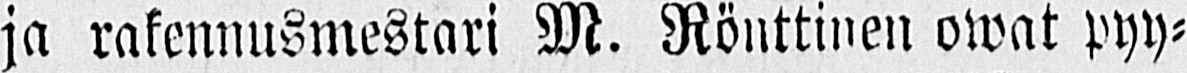ja rakennusmestari M. Rönttinen owat pyy-
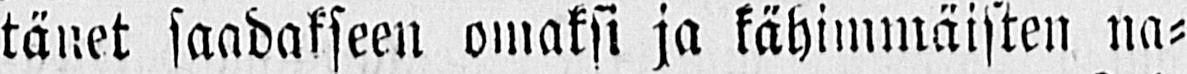tänet saadakseen omaksi ja kähimmäisten na-
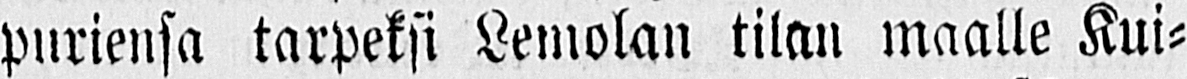puriensa tarpeksi Lemolan tilan maalle Kui-
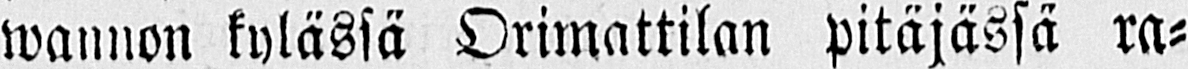wannon kylässä Orimattilan pitäjässä ra-
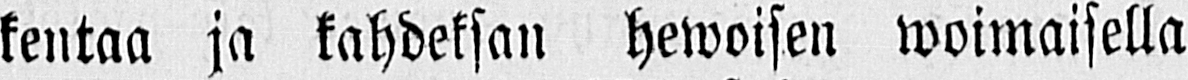kentaa ja kahdeksan hewoisen woimaisella
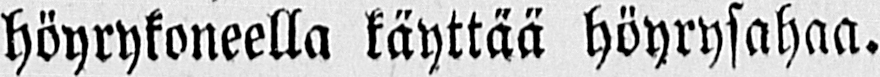höyrykoneella käyttää höyrysahaa.
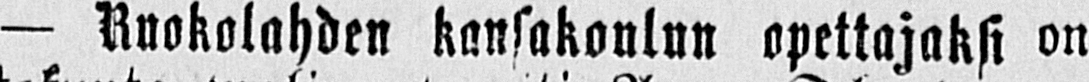— Ruokolahden kansakoulun opettajaksi on
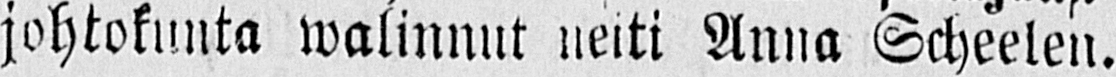johtokunta walinnnt neiti Anna Scheelen.
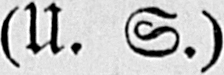(U. S.)
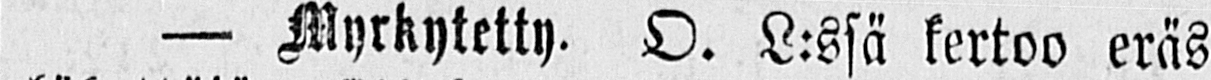— Myrkytetty. O. L:ssä kertoo eräs
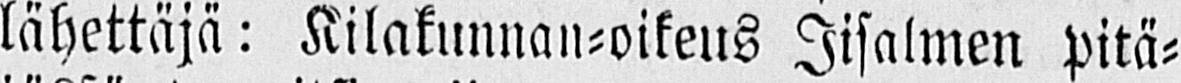lähettäjä: Kilakunnan-oikeus Iisalmen pitä-
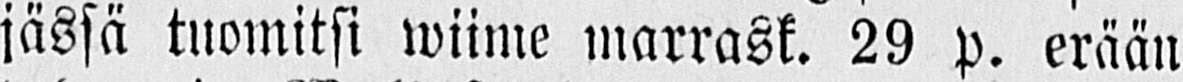jässä tuomitsi wiime marrask. 29 p. erään
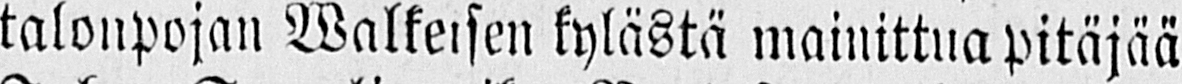talonpojan Walkeisen kylästä mainittua pitäjää
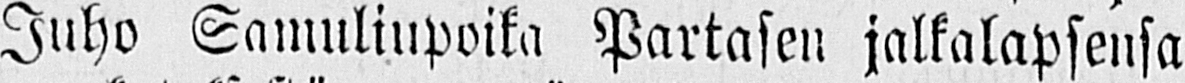Juho Samuliupoika Partasen jalkalapsensa
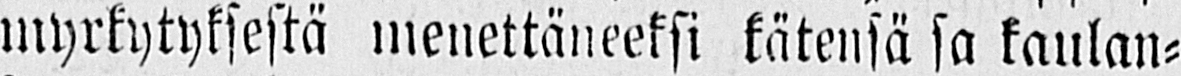myrkytyksestä menettäneeksi kätensä sa kaulan-
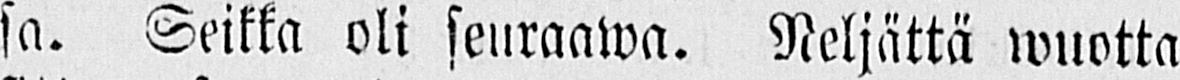sa. Seikka oli seuraawa. Neljättä wuotta
